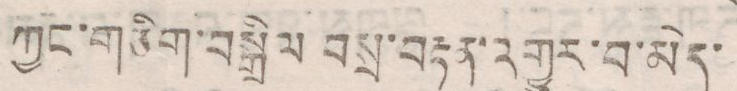ཀྱང་གཅིག་བསྒྲིལ བསྲ་བརྟན་འགྱུར་བ་མེད་
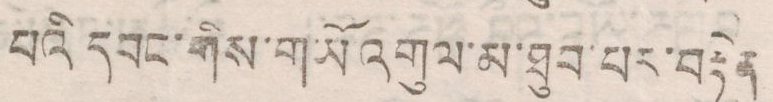པའི དབང་གིས་གཡོ འགུལ་མ་ཐུབ་པར་བརྟེན
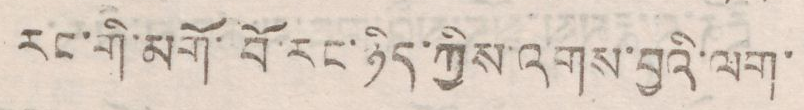རང་གི་མགོ་བོ་རང་ཉིད་ཀྱིས་འགས་བྱའི་ལག་
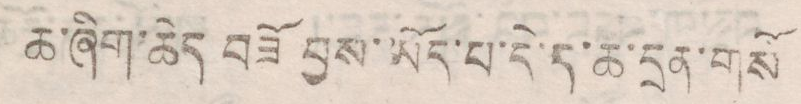ཆ་ཞིག་ཆེད བཟོ བྱས་ཡོད་པ་དེ་ད་ཆ་དྲན་གསོ
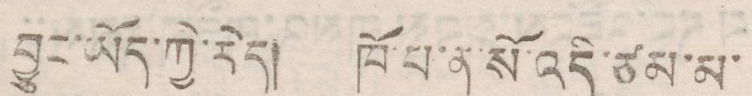བྱུང་ཡོད་ཀྱི་རེད། ཁོ་པ་ན་སོ་འདི་ཙམ་མ་
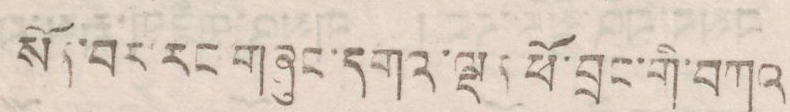སོན་བར་རང་གཞུང་དགའ་ལྡན་ཕོ་བྲང་གི་བཀའ
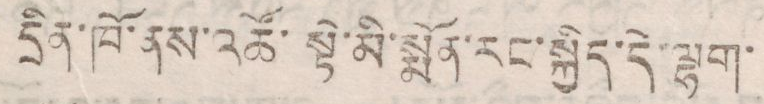དྲིན་ཁོ་ནས་འཚོ་སྟེ་མི་སྟོན་རང་སྐྱིད་དེ་ལྷག་
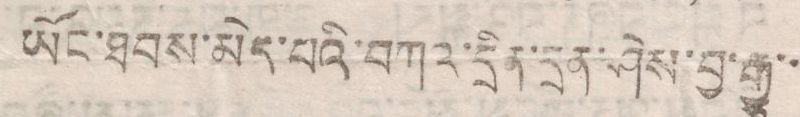ཡོང་ཐབས་མེད་པའི་བཀའ་དྲིན་དྲན་ཤེས་བྱ་རྒྱུ་་
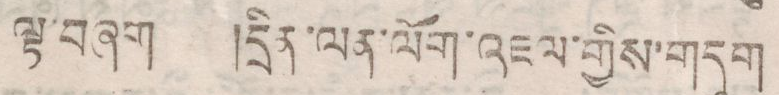ལྟ་བཞག །དྲེན་ལན་ལོག་འཇལ་གྱིས་གདུག
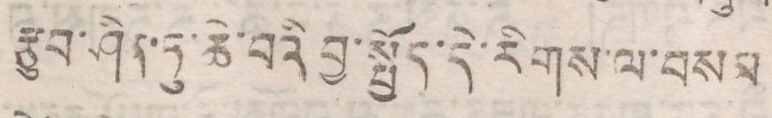རྩུབ་ཤིན་ཏུ་ཆེ་བའི བྱ་སྤྱོད་དེ་རིགས་ལ་བསམ
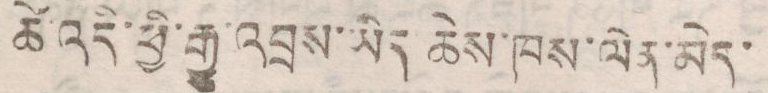ཚེ་འདི་ཕྱི་རྒྱུ་འབྲས་ཡིད ཆེས་ཁས་ལེན་མེད་
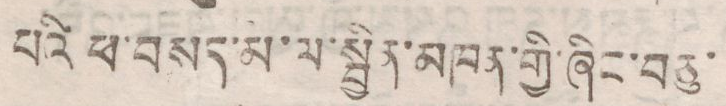པའི ཕ་བསད་མ་ལ་སྤྱིན་མཁན་གྱི་ཞིང་བཅུ་
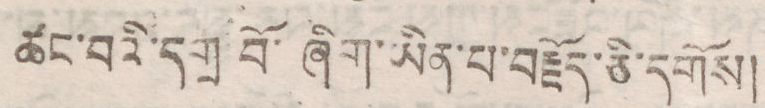ཚང་བའི་དགྲ་བོ་ཞིག་ཡིན་པ་བརྗོད་ཅི་དགོས།
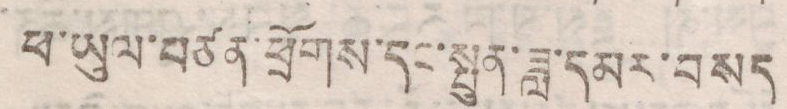ཕ་ཡུལ་བཙན་ཕྲོགས་དང་སྤུན་ཟླ་དམར་བསད
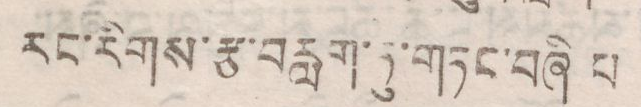རང་རིགས་རྩ་བརླག་ཏུ་གཏང་བཞི པ
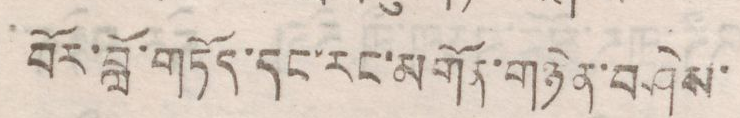བོར་བློ་གཏོད་དང་རང་མགོན་གཉེན་བཤེས་
